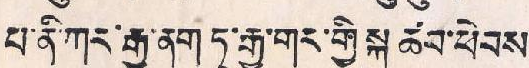པ་ནི་ཀར་རྒྱ་ནག་ཏུ་རྒྱ་གར་གྱི་སྐུ ཚབ་ཕེབས་
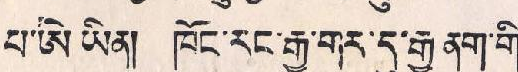པ་ཨེ ཡིན། ཁོང་རང་རྒྱ་གར་དུ་རྒྱ་ནག་གི་
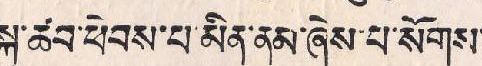སྐུ་ཚབ་ཕེབས་པ་མིན་ནམ་ཞེས་པ་སོགས་
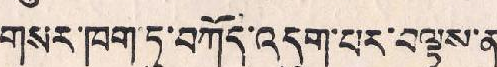གསར་ཁག་ཏུ་བཀོད་འདུག་པར་བལྟས་ན་
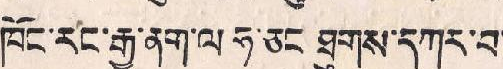ཁོང་རང་རྒྱ་ནག་ལ ཧ་ཅང་ཐུགས་དཀར་བ་
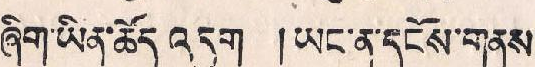ཞིག་ཡིན་ཆོད་འདུག །ཡང་ན་དངོས་གནས་
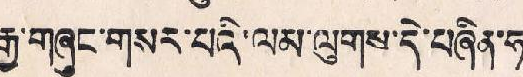རྒྱ་གཞུང་གསར་པའི་ལམ་ལུགས་དེ་བཞིན་ཧ་
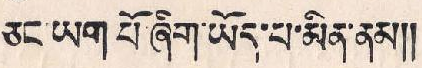ཅང་ཡག་པོ ཞིག ཡོད་པ་མིན་ནམ།།
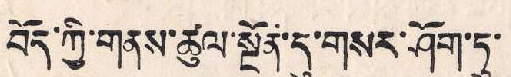བོད་ཀྱི་གནས་ཚུལ་སྔོན་དུ་གསར་ཤོག་ཏུ་
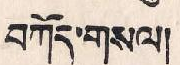བཀོད་གསལ།
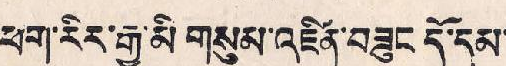ཕག་རིར་རྒྱ་མི་ གསུམ་འཛིན་བཟུང དོ་དམ་
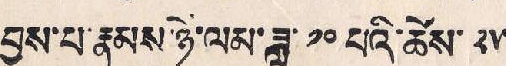བྱས་པ་རྣམས་ཉེ་ལམ་ཟླ་ ༡༠ པའི་ཚེས་ ༢༥
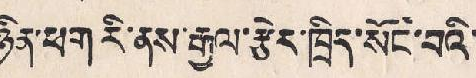ཉིན་ཕག་རི་ནས་རྒྱལ་རྩེར་ཁྲིད་སོང་བའི་
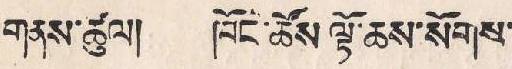གནས་ཚུལ། །ཁོང་ཚོས་ལྟོ་ཆས་སོགས་
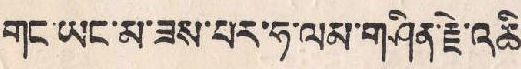གང་ཡང་མ་ཟས་པར་ཧ་ལམ་གཤིན་རྗེ་འཆི་
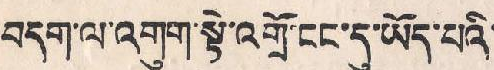བདག་ལ་འགུག་སྟེ་འགོ་ངང་དུ་ཡོད་པའི་
